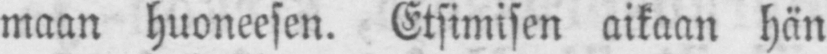maan huoneesen. Etsimisen aikaan hän
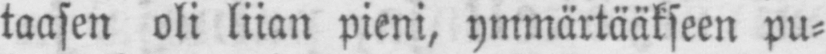taasen oli liian pieni, ymmärtääkseen pu-
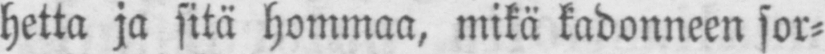hetta ja sitä hommaa, mikä kadonneen sor-
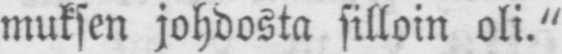muksen johdosta silloin oli."
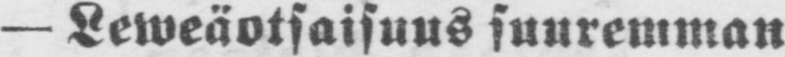— Leweäotsaisuus suuremman
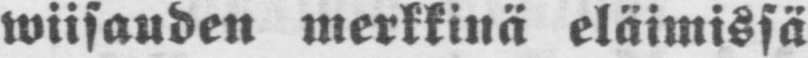wiisauden merkkinä eläimissä-
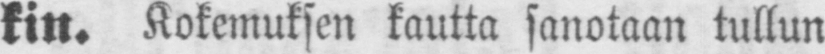kin. Kokemuksen kautta sanotaan tullun
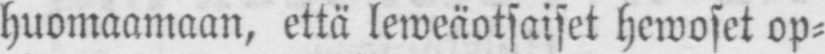huomaamaan, että leweäotsaiset hewoset op-
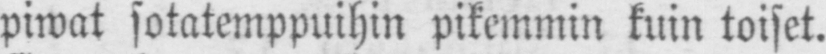piwat sotatemppuihin pikemmin kuin toiset.
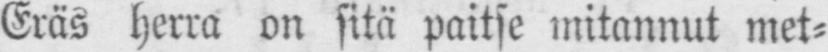Eräs herra on sitä paitse mitannut met-
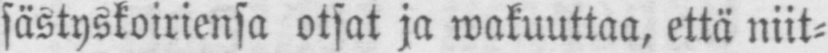sästyskoiriensa otsat ja wakuuttaa, että niit-
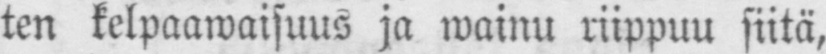ten kelpaawaisuus ja wainu riippuu siitä,
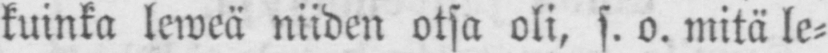kuinka leweä niiden otsa oli, s. o. mitä le-
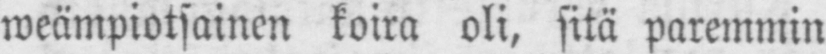weämpiotsainen koira oli, sitä paremmin
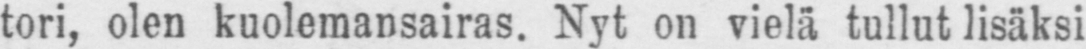tori, olen kuolemansairas. Nyt on vielä tullut lisäksi
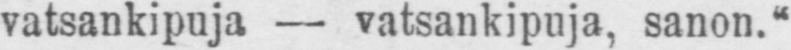vatsankipuja — vatsankipuja, sanon."
